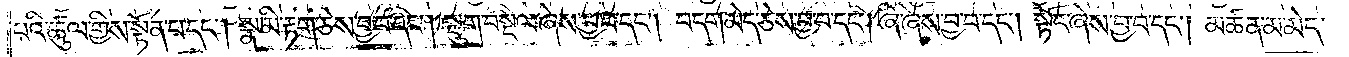པའི་ཚུལ་གྱིས་སྟོན་པ་དང༌། སྣ་མི་རྟག་ཅེས་བྱ་བ་དང༌། སྡུག་བསྔལ་ཞེས་བྱ་བ་དང༌། བདག་མེད་ཅེས་བྱ་བ་དང༌། ཞི་ཞེས་བྱ་བ་དང༌། སྟོང་ཞེས་བྱ་བ་དང༌། མཚན་མ་མེད་
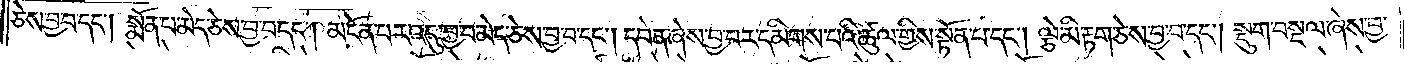ཅེས་བྱ་བ་དང༌། སྨོན་པ་མེད་ཅེས་བྱ་བ་དང༌། མངོན་པར་འདུ་བྱ་བ་མེད་ཅེས་བྱ་བ་དང༌། དབེན་ཞེས་བྱ་བར་དམིགས་པའི་ཚུལ་གྱིས་སྟོན་པ་དང༌། ལྟེ་མི་རྟག་ཅེས་བྱ་བ་དང༌། སྡུག་བསྔལ་ཞེས་བྱ་
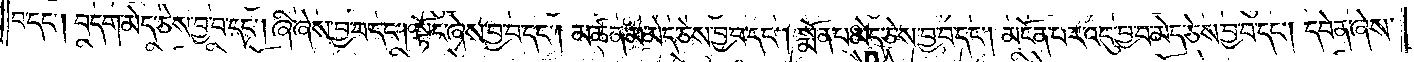བ་དང༌། བདག་མེད་ཅེས་བྱ་བ་དང༌། ཞི་ཞེས་བྱ་བ་དང༌། སྟོང་ཞེས་བྱ་བ་དང༌། མཚན་མ་མེད་ཅེས་བྱ་བ་དང༌། སྨོན་པ་མེད་ཅེས་བྱ་བ་དང༌། མངོན་པར་འདུ་བྱ་བ་མེད་ཅེས་བྱ་བ་དང༌། དབེན་ཞེས་
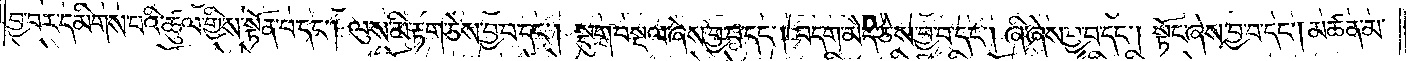བྱ་བར་དམིགས་པའི་ཚུལ་གྱིས་སྟོན་པ་དང༌། ལུས་མི་རྟག་ཅེས་བྱ་བ་དང༌། སྡུག་བསྔལ་ཞེས་བྱ་བ་དང༌། བདག་མེད་ཅེས་བྱ་བ་དང༌། ཞི་ཞེས་བྱ་བ་དང༌། སྟོང་ཞེས་བྱ་བ་དང༌། མཚན་མ་
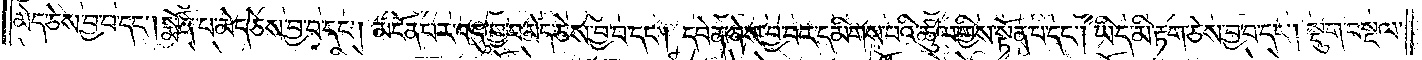མེད་ཅེས་བྱ་བ་དང༌། སྨོན་པ་མེད་ཅེས་བྱ་བ་དང༌། མངོན་པར་འདུ་བྱ་བ་མེད་ཅེས་བྱ་བ་དང༌། དབེན་ཞེས་བྱ་བར་དམིགས་པའི་ཚུལ་གྱིས་སྟོན་པ་དང༌། ཡིད་མི་རྟག་ཅེས་བྱ་བ་དང༌། སྡུག་བསྔལ་
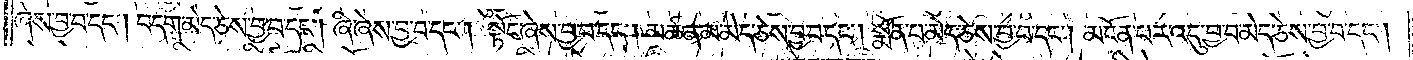ཞེས་བྱ་བ་དང༌། བདག་མེད་ཅེས་བྱ་བ་དང༌། ཞི་ཞེས་བྱ་བ་དང༌། སྟོང་ཞེས་བྱ་བ་དང༌། མཚན་མ་མེད་ཅེས་བྱ་བ་དང༌། སྨོན་པ་མེད་ཅེས་བྱ་བ་དང༌། མངོན་པར་འདུ་བྱ་བ་མེད་ཅེས་བྱ་བ་དང༌།
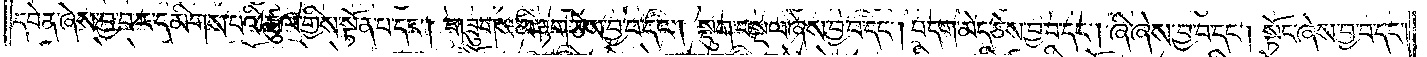དབེན་ཞེས་བྱ་བར་དམིགས་པའི་ཚུལ་གྱིས་སྟོན་པ་དང༌། གཟུགས་མི་རྟག་ཅེས་བྱ་བ་དང༌། སྡུག་བསྔལ་ཞེས་བྱ་བ་དང༌། བདག་མེད་ཅེས་བྱ་བ་དང༌། ཞི་ཞེས་བྱ་བ་དང༌། སྟོང་ཞེས་བྱ་བ་དང༌།
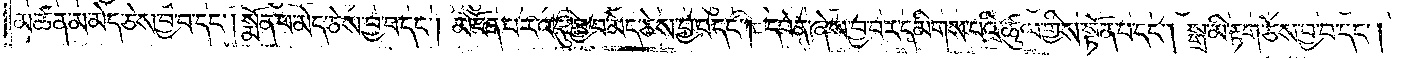མཚན་མ་མེད་ཅེས་བྱ་བ་དང༌། སྨོན་པ་མེད་ཅེས་བྱ་བ་དང༌། མངོན་པར་འདུ་བྱ་བ་མེད་ཅེས་བྱ་བ་དང༌། དབེན་ཞེས་བྱ་བར་དམིགས་པའི་ཚུལ་གྱིས་སྟོན་པ་དང༌། སྒྲ་མི་རྟག་ཅེས་བྱ་བ་དང༌།
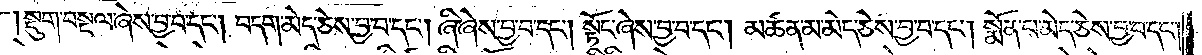སྡུག་བསྔལ་ཞེས་བྱ་བ་དང༌། བདག་མེད་ཅེས་བྱ་བ་དང༌། ཞི་ཞེས་བྱ་བ་དང༌། སྟོང་ཞེས་བྱ་བ་དང༌། མཚན་མ་མེད་ཅེས་བྱ་བ་དང༌། སྨོན་པ་མེད་ཅེས་བྱ་བ་དང༌།
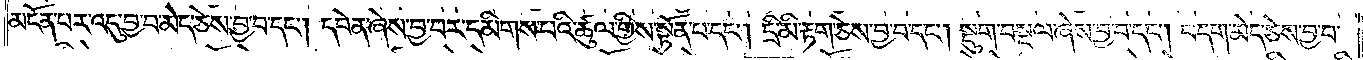མངོན་པར་འདུ་བྱ་བ་མེད་ཅེས་བྱ་བ་དང༌། དབེན་ཞེས་བྱ་བར་དམིགས་པའི་ཚུལ་གྱིས་སྟོན་པ་དང༌། དྲི་མི་རྟག་ཅེས་བྱ་བ་དང༌། སྡུག་བསྔལ་ཞེས་བྱ་བ་དང༌། བདག་མེད་ཅེས་བྱ་བ་
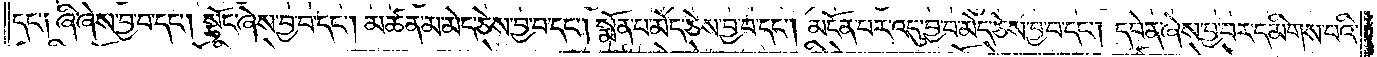དང༌། ཞི་ཞེས་བྱ་བ་དང༌། སྟོང་ཞེས་བྱ་བ་དང༌། མཚན་མ་མེད་ཅེས་བྱ་བ་དང༌། སྨོན་པ་མེད་ཅེས་བྱ་བ་དང༌། མངོན་པར་འདུ་བྱ་བ་མེད་ཅེས་བྱ་བ་དང༌། དབེན་ཞེས་བྱ་བར་དམིགས་པའི་
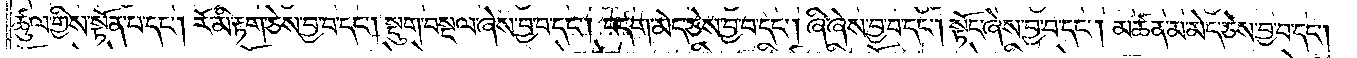ཚུལ་གྱིས་སྟོན་པ་དང༌། རོ་མི་རྟག་ཅེས་བྱ་བ་དང༌། སྡུག་བསྔལ་ཞེས་བྱ་བ་དང༌། བདག་མེད་ཅེས་བྱ་བ་དང༌། ཞི་ཞེས་བྱ་བ་དང༌། སྟོང་ཞེས་བྱ་བ་དང༌། མཚན་མ་མེད་ཅེས་བྱ་བ་དང༌།
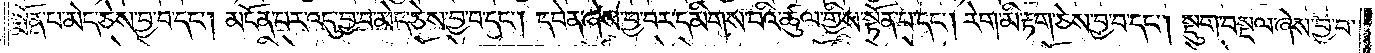སྨོན་པ་མེད་ཅེས་བྱ་བ་དང༌། མངོན་པར་འདུ་བྱ་བ་མེད་ཅེས་བྱ་བ་དང༌། དབེན་ཞེས་བྱ་བར་དམིགས་པའི་ཚུལ་གྱིས་སྟོན་པ་དང༌། རེག་མི་རྟག་ཅེས་བྱ་བ་དང༌། སྡུག་བསྔལ་ཞེས་བྱ་བ་
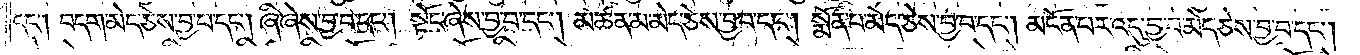དང༌། བདག་མེད་ཅེས་བྱ་བ་དང༌། ཞི་ཞེས་བྱ་བ་དང༌། སྟོང་ཞེས་བྱ་བ་དང༌། མཚན་མ་མེད་ཅེས་བྱ་བ་དང༌། སྨོན་པ་མེད་ཅེས་བྱ་བ་དང༌། མངོན་པར་འདུ་བྱ་བ་མེད་ཅེས་བྱ་བ་དང༌།
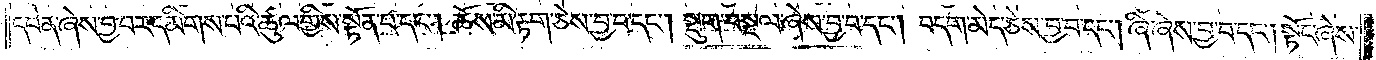དབེན་ཞེས་བྱ་བར་དམིགས་པའི་ཚུལ་གྱིས་སྟོན་པ་དང༌། ཆོས་མི་རྟག་ཅེས་བྱ་བ་དང༌། སྡུག་བསྔལ་ཞེས་བྱ་བ་དང༌། བདག་མེད་ཅེས་བྱ་བ་དང༌། ཞི་ཞེས་བྱ་བ་དང༌། སྟོང་ཞེས་
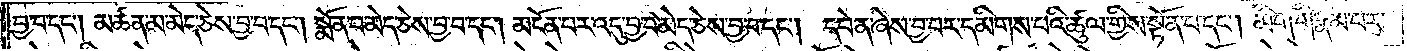བྱ་བ་དང༌། མཚན་མ་མེད་ཅེས་བྱ་བ་དང༌། སྨོན་པ་མེད་ཅེས་བྱ་བ་དང༌། མངོན་པར་འདུ་བྱ་བ་མེད་ཅེས་བྱ་བ་དང༌། དབེན་ཞེས་བྱ་བར་དམིགས་པའི་ཚུལ་གྱིས་སྟོན་པ་དང༌། མིག་གི་རྣམ་པར་
